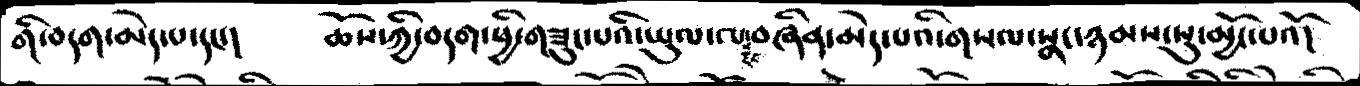གི་བདག་མེད་པ་དང་།   ཆོས་ཀྱི་བདག་ཕྱི་གཟུང་པའི་ཡུལ་ལ་རང་བཞིན་མེད་པའི་གསལ་སྣང་ཉམས་སུ་མྱོང་པའོ།
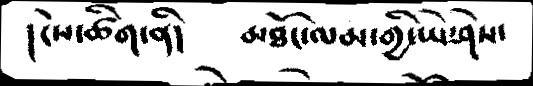།ངེས་ཚིག་ནི།   མཐོང་ལམ་གྱི་ཡེ་ཤེས་
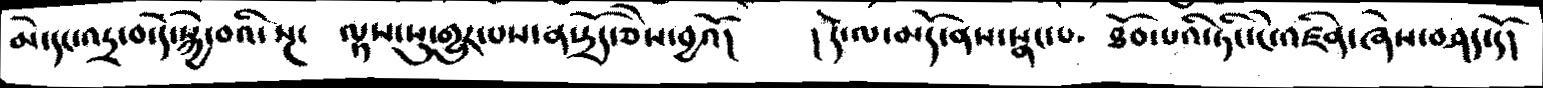མེ་དང་འདྲ་བ་དེ་སྐྱེ་བའི་སྔ་  ལྟས་སུ་གྱུར་པས་ན་དྲོད་ཅེས་བྱའོ།    །དེ་ལ་མདོ་ནས་སྣང་པ་  ཐོབ་པའི་ཏིང་ངེ་འཛིན་ཞེས་བཤད་དོ།
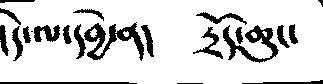།དེ་ལ་དབྱེ་ན།   དྲོད་ཆུང་
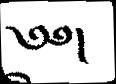༄༅།
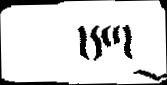།དང་།
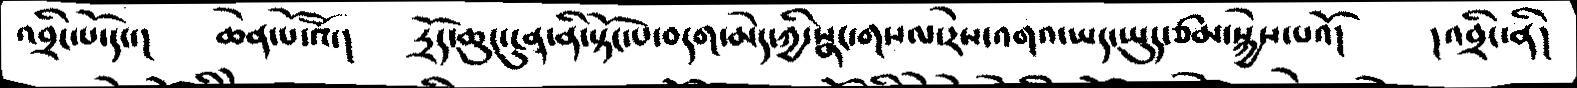འབྲིང་པོ་དང་།   ཆེན་པོ་འོ་།   དྲོད་ཆུང་ངུན་ནི་སྟོང་པ་བདག་མེད་ཀྱི་སྣང་གསལ་རེས་འགའ་ཡད་ཡུད་ཙམ་སྐྱེས་པའོ།   །འབྲིང་ནི།
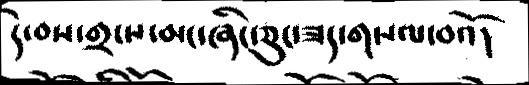དེ་བས་གྲངས་མང་ཞིང་ཅུང་ཟད་གསལ་བའོ།
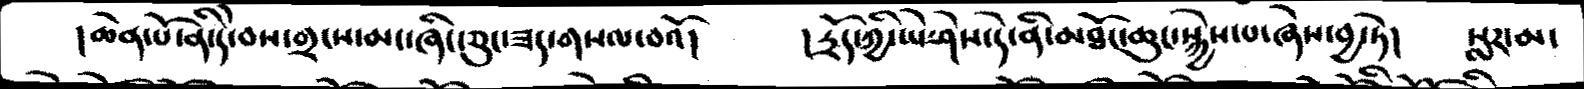།ཆེན་པོ་ནི་དེ་བས་གྲངས་མང་ཞིང་ཅུང་ཟད་གསལ་བའོ།   །དྲོད་ཀྱི་ཡེ་ཤེས་དེ་ནི་མཐོང་ཆུང་སྐྱེས་པ་ཞེས་བྱ་ཏེ།   སླར་མ་
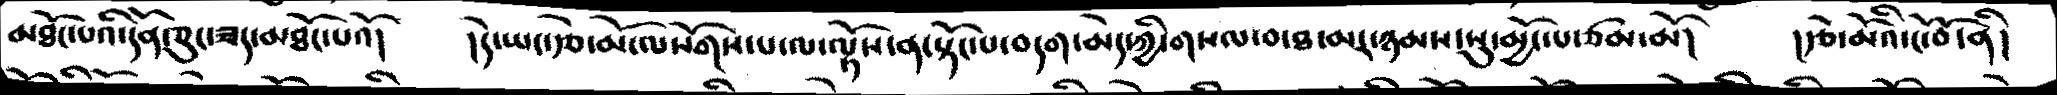མཐོང་པའི་དོན་ཅུང་ཟད་མཐོང་པའོ།   །དེ་ཡང་རྩེ་མོ་ལ་སོགས་པ་ལ་ལྟོས་ན་སྟོང་པ་བདག་མེད་ཀྱི་གསལ་བ་ཐ་མར་ཉམས་སུ་མྱོང་པ་ཙམ་མོ།   །རྩེ་མོའི་ངོ་བོ་ནི།
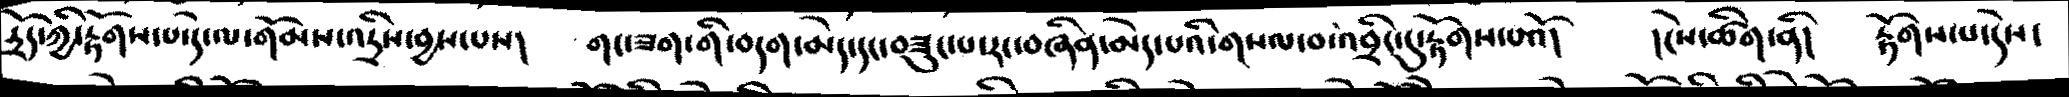དྲོད་ཀྱི་རྟོགས་པ་དེ་ལ་གོམས་འདྲིས་བྱས་པས།   གང་ཟག་གི་བདག་མེད་དང་བཟུང་པ་རང་བཞིན་མེད་པའི་གསལ་བ་འབྲིང་དུ་རྟོགས་པའོ།   །ངེས་ཚིག་ནི།  རྟོགས་པ་དེས་
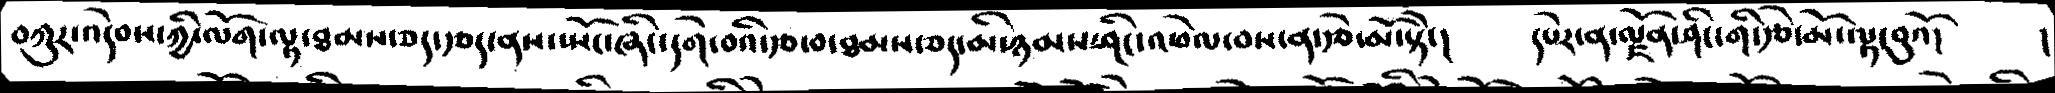བཀུར་འདེབས་ཀྱི་ལོག་ལྟ་ཐམས་ཅད་རྩད་ནས་སྤོང་ཞིང་དགེ་བའི་རྩ་བ་ཐམས་ཅད་མི་ཉམས་ཤིང་འཕེལ་བས་ན་རྩེ་མོ་སྟེ།   དཔེར་ན་ལྗོན་ཤིང་གི་རྩེ་མོ་ལྟ་བུའོ།   །
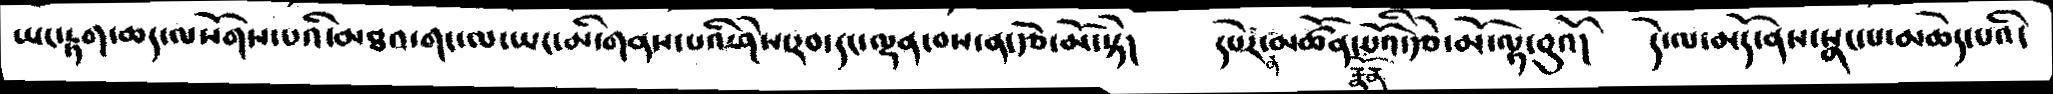ཡང་རྟག་ཆད་ལ་སོག་པའི་མཐའ་གང་ལ་ཡང་མི་གནས་པའི་ཤེས་རབ་དང་ལྡན་བས་ན་རྩེ་མོ་སྟེ།  དཔེར་ན་མཚོན་རྣོན་པོའི་རྩེ་མོ་ལྟ་བུའོ།   དེ་ལ་མདོ་ནས་སྣང་པ་མཆེད་པའི་
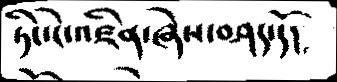ཏིང་ངེ་འཛིན་ཞེས་བཤད་དོ།
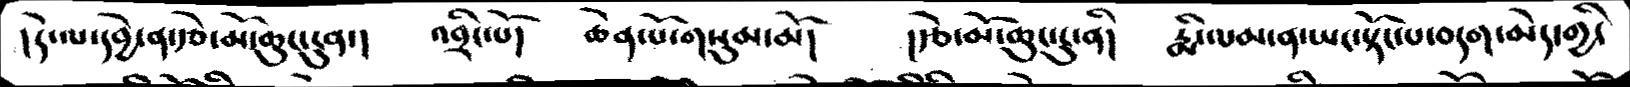།དེ་ལ་དབྱེ་ན་རྩེ་མོ་ཆུང་ངུན་།   འབྲིང་པོ།   ཆེན་པོ་གསུམ་མོ།   །རྩེ་མོ་ཆུང་ངུ་ནི།   རྨི་ལམ་ན་ཡང་སྟོང་པ་བདག་མེད་གྱི་
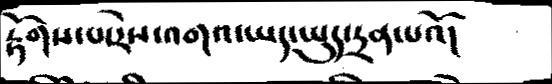རྟོགས་པ་རེས་འགའ་ཡད་ཡུད་དྲན་པའོ།
